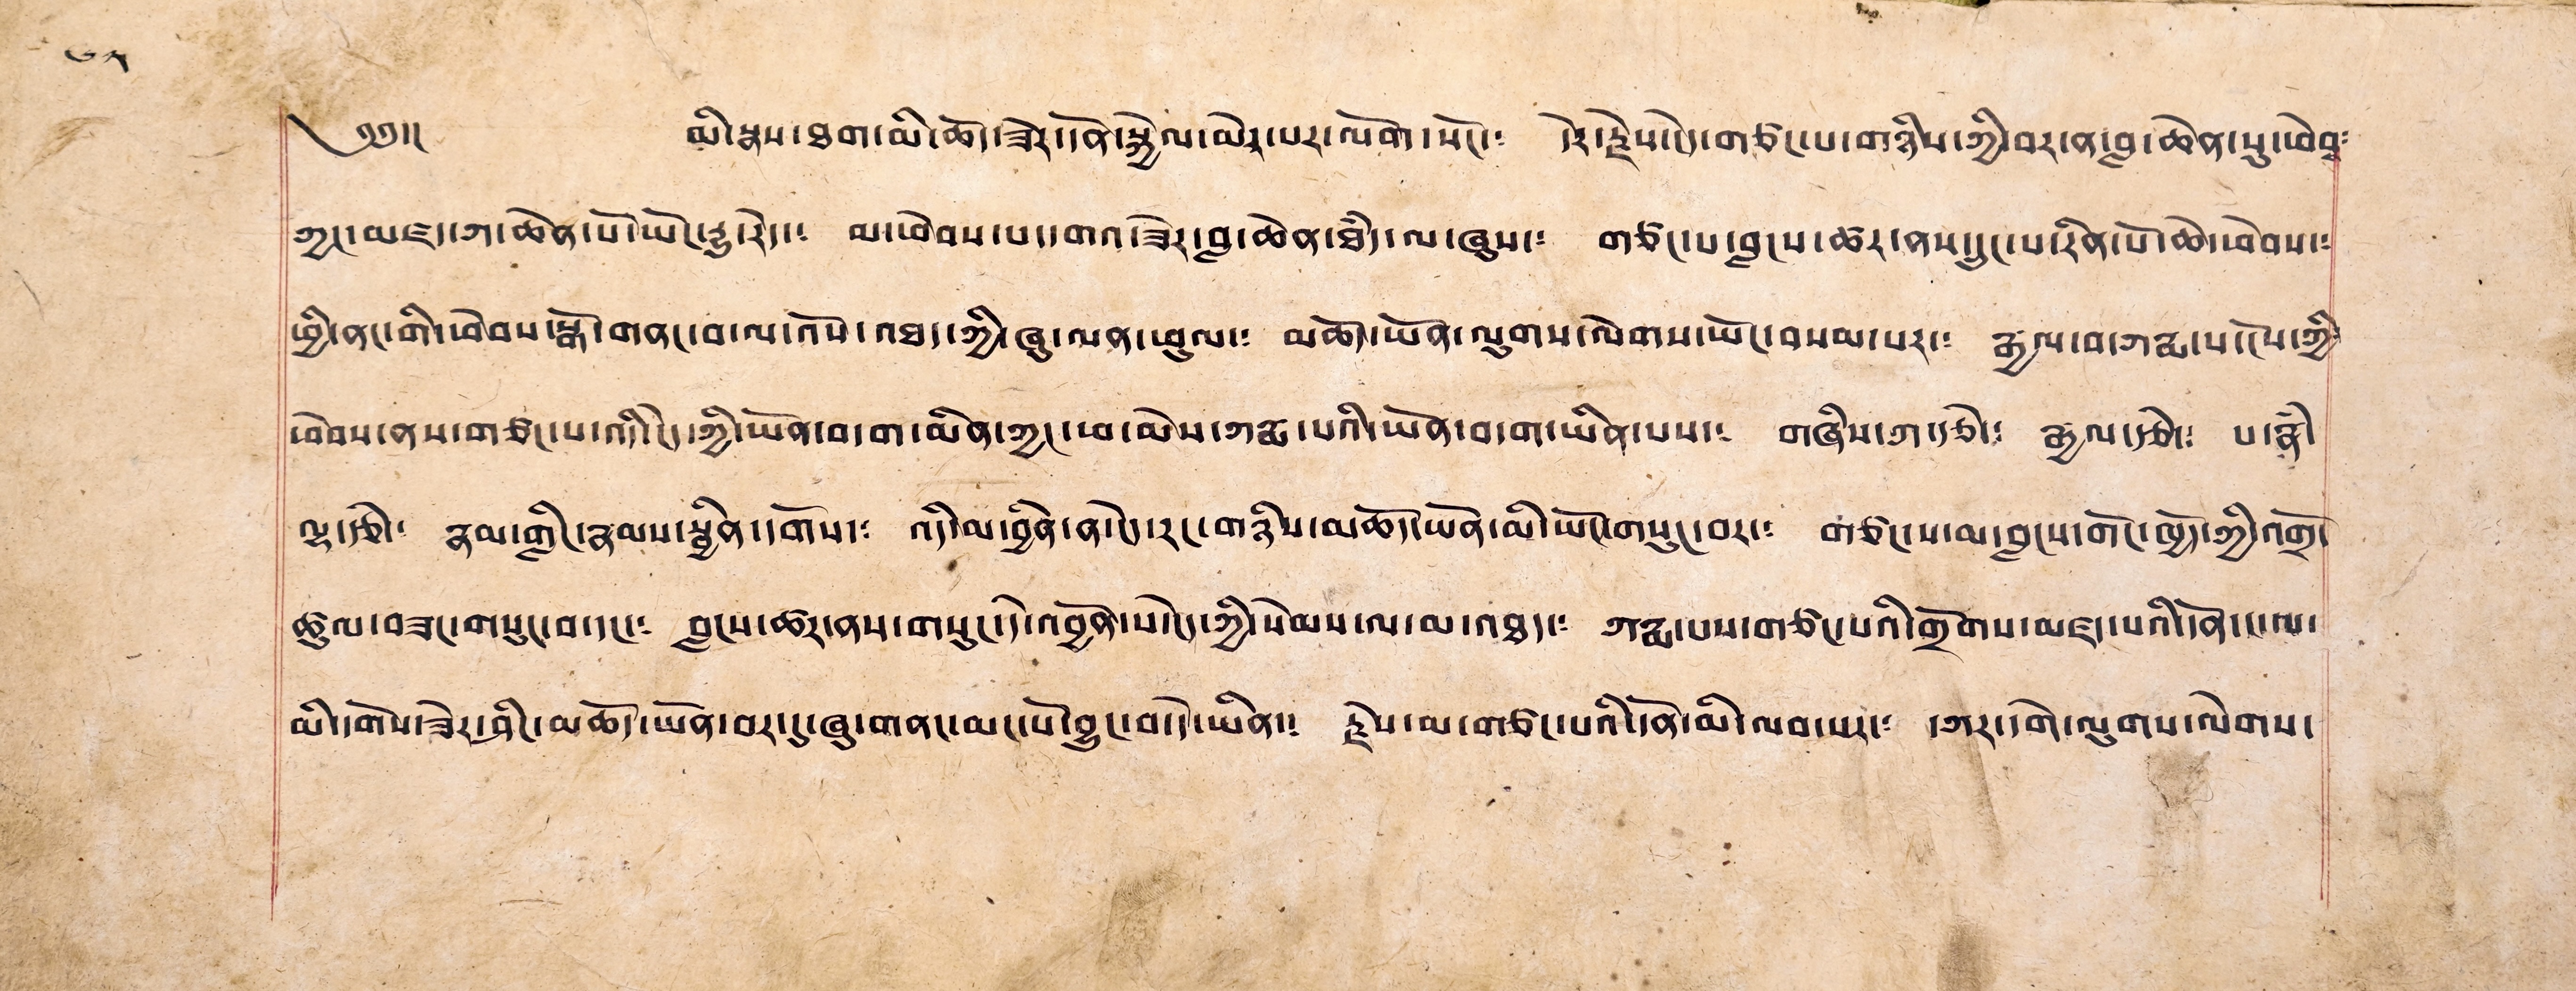༄༅།། མི་སྣས་ཐག་མི་ཆོད་ཟེར་དོན་སྐྱེལ་མེར་པར་ལོག་སོང་༴ དེར་རྗེས་ངེད་གཙང་པ་གཉིས་ཀྱི་བར་ན་བླ་ཆེན་སུ་ཕེབྶ༴
ཀྱང་མཛད་ཀ་ཆེན་པོ་ཡོང་རྒྱུ་རེད་༴ མ་ཕེབས་པ་དགའ་ཟེར་བླ་ཆེན་ཐཾད་ལ་ཞུས་༴ གཙང་པ་བླངས་ཚར་ནས་དྲུང་པ་རིན་པོ་ཆེ་ཕེབས་༴
ཕྱི་ནང་གི་ཕེབས་སྒོ་གནང་བ་ལ་འོས་འཐད་ཀྱི་ཞུ་ལན་ཕུལ་༴ མཆོད་ཡོན་ལུགས་ལེགས་ཡོང་བསམ་པར་༴ རྒྱལ་བ་ཀརྨ་པ་ངེས་ཀྱི་
ཕེབས་ནས་གཙང་པ་འདི་ངེད་ཀྱི་ཡོན་བདག་མིན་ཀྱང་ཕ་མེས་ཀརྨ་པའི་ཡོན་བདག་ཡིན་པས་༴ གཞིས་ཀ་རྩེ་༴ རྒྱལ་རྩེ༴ པ་རྣཾ་
ལྷ་རྩེ་༴ རྣམ་གླིང་རྣམས་སྦྱིན་དགོས་༴ འདི་མ་བྱིན་ན་ངེད་རང་གཉིས་མཆོད་ཡོན་མི་ཡོང་གསུང་བར་༴ གཙང་པ་མ་བླངས་གོང་ཁྱོད་ཀྱི་འགྲོ་
ཚུལ་བཟང་གསུང་བ་དང་༴ བླངས་ཚར་ནས་གསུང་དེ་འབྱོན་པོ་ངེད་ཀྱི་སེམས་ལ་མ་འཐད་༴ ཀརྨ་པས་གཙང་པའི་གྲོགས་མཛད་པའི་དོན་ང་ལ་
མི་དགོས་ཟེར་ཤིང་མཆོད་ཡོན་བར་དུ་ཞུ་གནང་མང་པོ་བྱུང་བ་དེ་ཡིན་༴ རྗེས་མ་གཙང་པའི་དོན་མི་ལབ་པར་༴ དཀར་དགེ་ལུགས་ལེགས་
